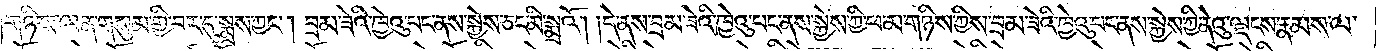གཉིས་ལན་གསུམ་གྱི་བར་དུ་སྨྲས་ཀྱང༌། བྲམ་ཟེའི་ཁྱེའུ་པང་ནས་སྐྱེས་ཅང་མི་སྨྲའོ། །དེ་ནས་བྲམ་ཟེའི་ཁྱེའུ་པང་ནས་སྐྱེས་ཀྱི་ཕ་མ་གཉིས་ཀྱིས་བྲམ་ཟེའི་ཁྱེའུ་པང་ནས་སྐྱེས་ཀྱི་ནེའུ་ལྡངས་རྣམས་ལ་
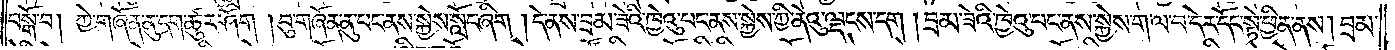བསྒོ་བ། ཀྱེ་གཞོན་ནུ་དག་ཚུར་ཤོག །བུ་གཞོན་ནུ་པང་ནས་སྐྱེས་སློང་ཞིག །དེ་ནས་བྲམ་ཟེའི་ཁྱེའུ་པང་ནས་སྐྱེས་ཀྱི་ནེའུ་ལྡངས་དག །བྲམ་ཟེའི་ཁྱེའུ་པང་ནས་སྐྱེས་ག་ལ་བ་དེར་དོང་སྟེ་ཕྱིན་ནས། བྲམ་
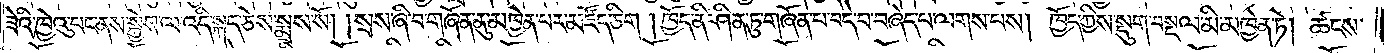ཟེའི་ཁྱེའུ་པང་ནས་སྐྱེས་ལ་འདི་སྐད་ཅེས་སྨྲས་སོ། །སྲས་ཞི་བ་གཞོན་ནུ་མཁྱེན་པར་མཛོད་ཅིག །ཁྱོད་ནི་ཤིན་ཏུ་གཞོན་པ་བདེ་བ་བཞེད་པ་ལགས་པས། ཁྱོད་ཀྱིས་སྡུག་བསྔལ་མི་མཁྱེན་ཏེ། ཚངས་
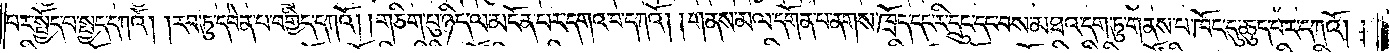པར་སྤྱོད་པ་སྤྱད་དཀའོ། །རབ་ཏུ་དབེན་པ་བགྱིད་དཀའོ། །གཅིག་པུ་ཉིད་ལ་མངོན་པར་དགའ་བ་དཀའོ། །གནས་མལ་དགོན་པ་ནགས་ཁྲོད་དང་རི་དྲུང་དང་བས་མཐའ་དག་ཏུ་གནས་པ་ཁོང་དུ་ཆུད་པར་དཀའོ། །
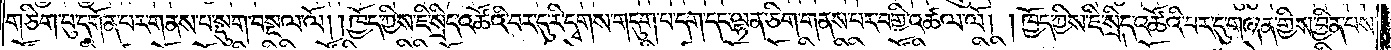གཅིག་པུ་དགོན་པར་གནས་པ་སྡུག་བསྔལ་ལོ། །ཁྱོད་ཀྱིས་ཇི་སྲིད་འཚོའི་བར་དུ་རི་དྭགས་གདུག་པ་དག་དང་ལྷན་ཅིག་གནས་པར་བགྱི་འཚལ་ལོ། །ཁྱོད་ཀྱིས་ཇི་སྲིད་འཚོའི་བར་དུ་གཞན་གྱིས་བྱིན་པས་
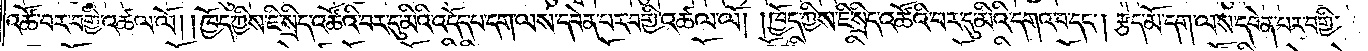འཚོ་བར་བགྱི་འཚལ་ལོ། །ཁྱོད་ཀྱིས་ཇི་སྲིད་འཚོའི་བར་དུ་མིའི་འདོད་པ་དག་ལས་དབེན་པར་བགྱི་འཚལ་ལོ། །ཁྱོད་ཀྱིས་ཇི་སྲིད་འཚོའི་བར་དུ་མིའི་དགའ་བ་དང༌། རྩེད་མོ་དག་ལས་དབེན་པར་བགྱི་
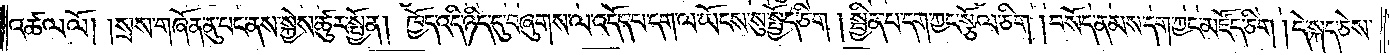འཚལ་ལོ། །སྲས་གཞོན་ནུ་པང་ནས་སྐྱེས་ཚུར་སྤྱོན། ཁྱོད་འདི་ཉིད་དུ་བཞུགས་ལ་འདོད་པ་དག་ལ་ཡོངས་སུ་སྤྱོད་ཅིག །སྦྱིན་པ་དག་ཀྱང་སྩོལ་ཅིག །བསོད་ནམས་དག་ཀྱང་མཛོད་ཅིག །དེ་སྐད་ཅེས་
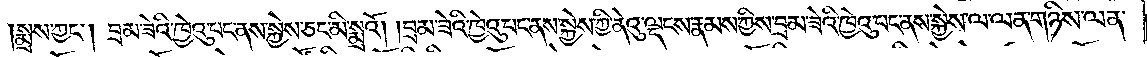སྨྲས་ཀྱང༌། བྲམ་ཟེའི་ཁྱེའུ་པང་ནས་སྐྱེས་ཅང་མི་སྨྲའོ། །བྲམ་ཟེའི་ཁྱེའུ་པང་ནས་སྐྱེས་ཀྱི་ནེའུ་ལྡངས་རྣམས་ཀྱིས་བྲམ་ཟེའི་ཁྱེའུ་པང་ནས་སྐྱེས་ལ་ལན་གཉིས་ལན་
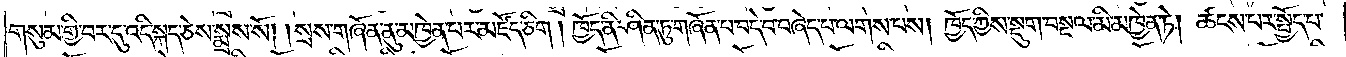གསུམ་གྱི་བར་དུ་འདི་སྐད་ཅེས་སྨྲས་སོ། །སྲས་གཞོན་ནུ་མཁྱེན་པར་མཛོད་ཅིག །ཁྱོད་ནི་ཤིན་ཏུ་གཞོན་པ་བདེ་བ་བཞེད་པ་ལགས་པས། ཁྱོད་ཀྱིས་སྡུག་བསྔལ་མི་མཁྱེན་ཏེ། ཚངས་པར་སྤྱོད་པ་
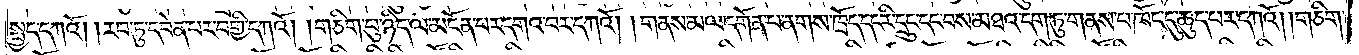སྤྱད་དཀའོ། །རབ་ཏུ་དབེན་པར་བགྱི་དཀའོ། །གཅིག་པུ་ཉིད་ལ་མངོན་པར་དགའ་བར་དཀའོ། །གནས་མལ་དགོན་པ་ནགས་ཁྲོད་དང་རི་དྲུང་དང་བས་མཐའ་དག་ཏུ་གནས་པ་ཁོང་དུ་ཆུད་པར་དཀའོ། །གཅིག་
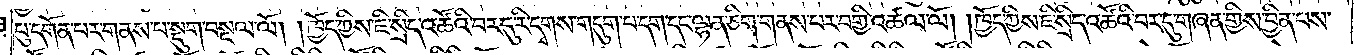པུ་དགོན་པར་གནས་པ་སྡུག་བསྔལ་ལོ། །ཁྱོད་ཀྱིས་ཇི་སྲིད་འཚོའི་བར་དུ་རི་དྭགས་གདུག་པ་དག་དང་ལྷན་ཅིག་གནས་པར་བགྱི་འཚལ་ལོ། །ཁྱོད་ཀྱིས་ཇི་སྲིད་འཚོའི་བར་དུ་གཞན་གྱིས་བྱིན་པས་
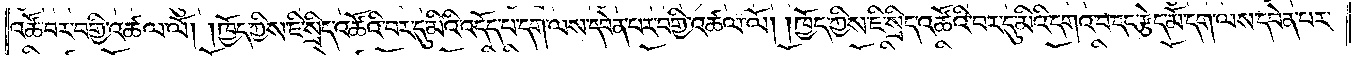འཚོ་བར་བགྱི་འཚལ་ལོ། །ཁྱོད་ཀྱིས་ཇི་སྲིད་འཚོའི་བར་དུ་མིའི་འདོད་པ་དག་ལས་དབེན་པར་བགྱི་འཚལ་ལོ། །ཁྱོད་ཀྱིས་ཇི་སྲིད་འཚོའི་བར་དུ་མིའི་དགའ་བ་དང་རྩེད་མོ་དག་ལས་དབེན་པར་
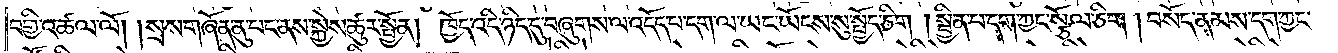བགྱི་འཚལ་ལོ། །སྲས་གཞོན་ནུ་པང་ནས་སྐྱེས་ཚུར་སྤྱོན། ཁྱོད་འདི་ཉིད་དུ་བཞུགས་ལ་འདོད་པ་དག་ལ་ཡང་ཡོངས་སུ་སྤྱོད་ཅིག །སྦྱིན་པ་དག་ཀྱང་སྩོལ་ཅིག །བསོད་ནམས་དག་ཀྱང་
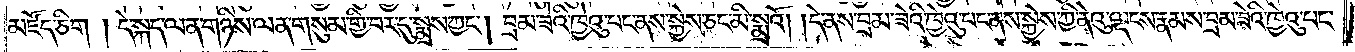མཛོད་ཅིག །དེ་སྐད་ལན་གཉིས་ལན་གསུམ་གྱི་བར་དུ་སྨྲས་ཀྱང༌། བྲམ་ཟེའི་ཁྱེའུ་པང་ནས་སྐྱེས་ཅང་མི་སྨྲའོ། །དེ་ནས་བྲམ་ཟེའི་ཁྱེའུ་པང་ནས་སྐྱེས་ཀྱི་ནེའུ་ལྡངས་རྣམས་བྲམ་ཟེའི་ཁྱེའུ་པང་
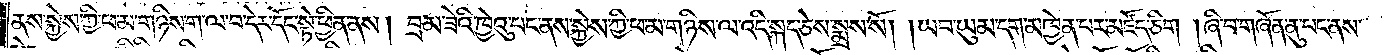ནས་སྐྱེས་ཀྱི་ཕ་མ་གཉིས་ག་ལ་བ་དེར་དོང་སྟེ་ཕྱིན་ནས། བྲམ་ཟེའི་ཁྱེའུ་པང་ནས་སྐྱེས་ཀྱི་ཕ་མ་གཉིས་ལ་འདི་སྐད་ཅེས་སྨྲས་སོ། །ཡབ་ཡུམ་དག་མཁྱེན་པར་མཛོད་ཅིག །ཞི་བ་གཞོན་ནུ་པང་ནས་
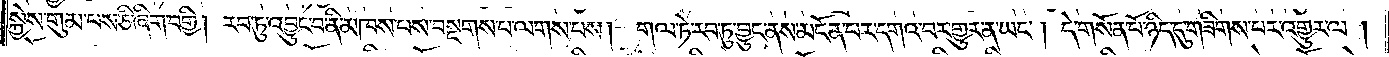སྐྱེས་གུམ་པས་ཅི་ཞིག་བགྱི། རབ་ཏུ་འབྱུང་བ་ནི་མཁས་པས་བསྔགས་པ་ལགས་པས། གལ་ཏེ་རབ་ཏུ་བྱུང་ནས་མངོན་པར་དགའ་བར་གྱུར་ན་ཡང༌། དེ་གསོན་པོ་ཉིད་དུ་གཟིགས་པར་འགྱུར་ལ།
